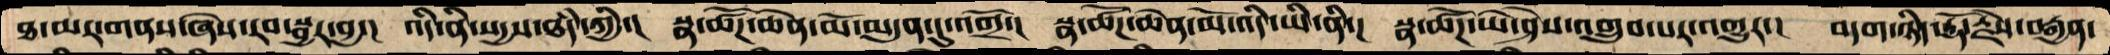ཐ་མར་གནས་ཞེས་རབ་སྦྱར་བྱ་།  འདི་ནི་སདྱས་ཐཾད་ཀྱི་།  སྣ་ཚོཌ་ཆེན་མོ་མདུན་དུ་འགྲོ་།  སྣ་ཚོཌ་ཆེན་མོ་འདི་ཡི་ནི་།  སྣ་ཚོཌ་ཡེ་ཤེས་འགྲུབ་པར་འགྱུར་།  བདག་ཉིད་རྡོ་རྗེས་བརྒྱན་
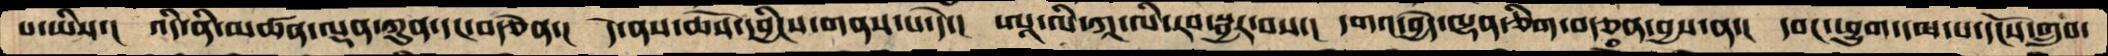པ་ཡིས་།   འདི་ནི་མཚན་ལྡན་ཀུན་དང་བརྩེན་།  དེ་ནས་ཆོས་དབྱིངས་གནས་པ་དེ་།   ཨཱ་ལི་ཀཱ་ལི་རབ་སྦྱར་བས་།  དགའ་བྱེད་ལྷན་ཅིག་བརྩན་བྱས་ན་།  དབང་ཕྱུག་དམ་པ་དངོས་གྲུབ་
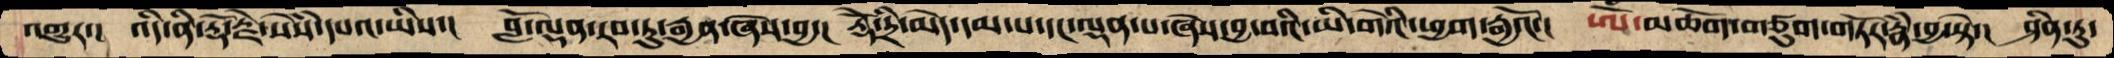འགྱུར་།  འདི་ནི་རྡོ་རྗེ་སེཾས་དཔའ་ཡིས་།   བློ་ལྡན་རབ་ཏུ་རྒྱན་ཞེས་བྱ་།  རྡོེ་དྲི་མེད་དམ་པ་དང་ལྡན་པ་ཞེས་བྱ་བའི་ཡི་གེའི་ཕྱག་རྒྱའོ་།  ཨོཾ་མཆོག་གཙུག་གཏོར་རྣཾ་བྱ་སྟེ་།  ཤིན་ཏུ་
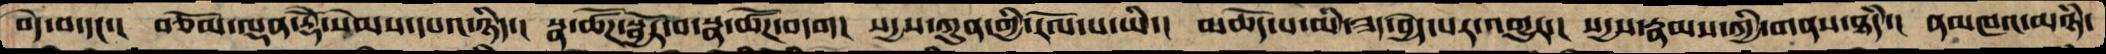བདེ་བ་དང་།  བཅོམ་ལྡན་རྡོེ་སེམས་དཔའ་ཉིད་།  སྣ་ཚོཌ་སྦྱོར་བ་སྣ་ཚོཌ་བདག།  སདྱས་ཀུན་གྱི་རོལ་པ་ཡི་།  མཆོད་པ་མི་ཟད་བྱེད་པར་འགྱུར་།  སདྱས་རྣམས་ཀྱི་གནས་ཐཾད་།  ནམཁའ་མཉཾ་
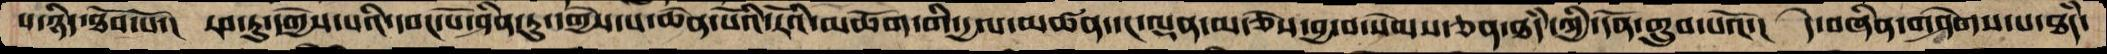པ་ཉིད་ཐོབ་པོ་།  རབ་ཏུ་དགྱེས་པའི་དབང་པོ་ཤིན་ཏུ་དགྱེས་པ་ཆེན་པོའི་རོའི་མཆོག་གི་དྱལ་མཚན་དང་ལྡན་མ་ཅེས་བྱ་བ་སེམས་ཅན་ཐཾད་ཀྱི་དོན་གྲུབ་པའོ་།  དེ་བཞིན་གཤེགས་པ་ཐཾད་
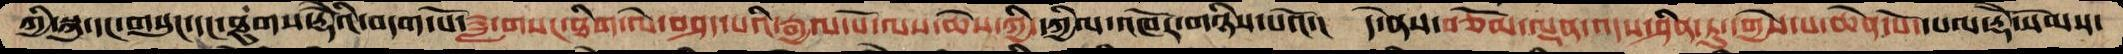ཀྱི་སྐུ་དང་གསུང་དང་ཐུགས་རྡོེའི་བདག་པོ་ཟླ་གསང་ཐིག་ལེ་བཤད་པའི་རྒྱལ་པོ་ལས་ཆེས་ཀྱི་དཀྱིལ་འཁོར་གཉིས་པའོ་།  དེ་ནས་བཅོམ་ལྡན་འདས་ཤིན་ཏུ་དགྱེས་པ་ཆེན་པོ་དཔལ་རྡོེ་སེམས་
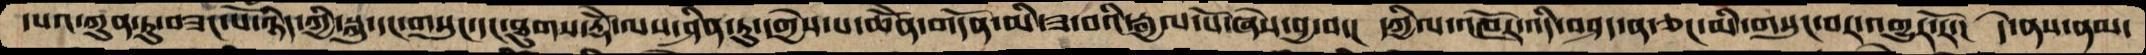དཔའ་ཀུན་ཏུ་བཟང་པོ་ཉིད་ཀྱི་སྐུ་དང་གསུང་དང་ཐུགས་རྡོེ་ལས་ཤིན་ཏུ་དགྱེས་པ་ཆོེན་གདོན་མི་ཟ་བའི་རྒྱལ་པོ་ཞེས་བྱ་བ་།  དཀྱིལ་འཁོར་འདི་བཤད་ན་ཅང་མི་གསུང་བར་འགྱུར་རོ་།  དེ་ནས་ནམ་
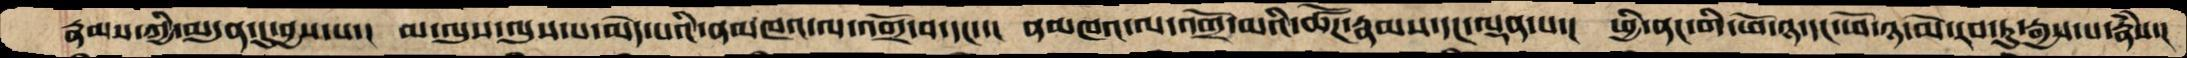རྣམས་ཀྱི་མདུན་དུ་བྱས་པ་།  མ་ལུས་ལུས་པ་མེད་པའི་ནམཁའ་ལ་འགྲོ་བ་དང་་།  ནམཁའ་ལ་འགྲོ་མའི་ཚོཌ་རྣམས་དང་ལྡན་པ་།  ཕྱི་ནང་གི་ཕོ་ཉ་དང་ཕོ་ཉ་མོ་རབ་ཏུ་རྒྱས་པ་རྣཾས་།
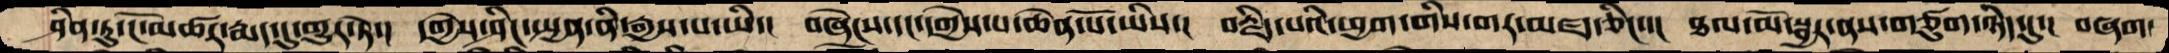ཤིན་ཏུ་ངོ་མཚར་རྨད་དུ་གྱུར་ཏེ་།  དགྱེས་ཤིང་སྤྱན་ནི་རྒྱས་པ་ཡི་།  བཞེངས་དང་དགྱེས་པ་ཆེན་པོ་ཡིས་།  བརྗིད་པའི་ཕྱག་གིས་གར་མཛད་ཅིང་་།  ཐལ་མོ་སྦྱར་ནས་གཙུག་ཉིད་དུ་།  བཞག་
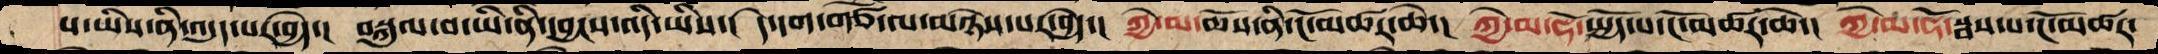པ་ཡིས་ནི་འདུད་པར་བྱེད་།  བསྐུལ་བ་ཡི་ནི་དབྱངས་འདི་ཡིས་།  དེ་དག་གཙོ་ལ་མཉེས་པར་བྱེད་།  ཀྱེ་མ་ཆོས་ནི་ངོ་མཚར་ཆེ་།  ཀྱེ་མ་ཧོ་སྤྱོད་པ་ངོ་མཚར་ཆེ་།  ཀྱེ་མ་ཧོ་སྦས་པ་ངོ་མཚར་
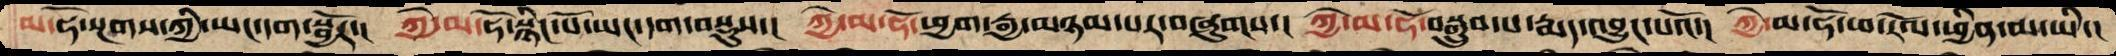མ་ཧོ་སྔགས་ཀྱི་ཡང་དག་སྦྱོར་།  ཀྱེ་མ་ཧོ་སྙིང་པོ་ཡང་དག་བསྡུས་།  ཀྱེ་མ་ཧོ་ཕྱག་རྒྱ་མཉམ་པར་བཞུགས་།  ཀྱེ་མ་ཧོ་བསྒྲུབ་པ་རྨད་འབྱུང་པའོ་།  ཀྱེ་མ་ཧོ་ཕ་རོལ་ཕྱིན་མ་ཡི་།
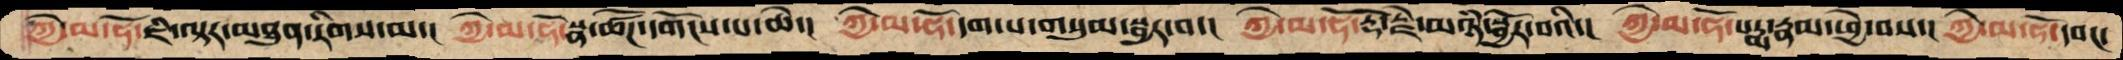ཀྱེ་མ་ཧོ་ཇི་ལྟར་མཐུན་རིགས་མ་།  ཀྱེ་མ་ཧོ་སྣ་ཚོཌ་དགོངས་པ་ཆེ་།  ཀྱེ་མ་ཧོ་དག་པ་གསུམ་སྦྱར་བ་།  ཀྱེ་མ་ཧོ་རྡོ་རྗེ་མཉཾ་སྦྱོར་བའི་།  ཀྱེ་མ་ཧོ་པདྨ་རྣམ་ཕྱེ་བས་།  ཀྱེ་མ་ཧོ་དབང་
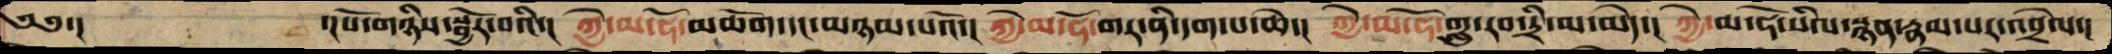༄༅་།        ་།པོ་གཉིས་སྦྱོར་བའི་།  ཀྱེ་མ་ཧོ་མཆོག་དང་མཉམ་པའོ་།  ཀྱེ་མ་ཧོ་གར་ནི་དག་པ་ཆེ་།  ཀྱེ་མ་ཧོ་གླུ་རབ་དྲི་མ་མེད་།  ཀྱེ་མ་ཧོ་སིལ་སྙན་རྣམ་པར་འབྲེལ་།
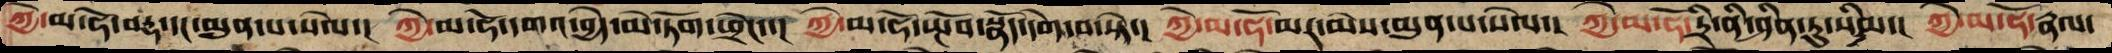ཀྱེ་མ་ཧོ་བརྡ་དང་མུན་པ་སེལ་། ཀྱེ་མ་ཧོ་དགའ་བྱེད་མེ་ཏོག་ཕྲེང་་། ཀྱེ་མ་ཧོ་སྤོབ་སྣོད་དགེ་བ་སྟེ་། ཀྱེ་མ་ཧོ་མར་མེས་མུན་པ་སེལ་། ཀྱེ་མ་ཧོ་དྲི་ནི་ཤིན་ཏུ་སིམ་། ཀྱེ་མ་ཧོ་རྣལ་
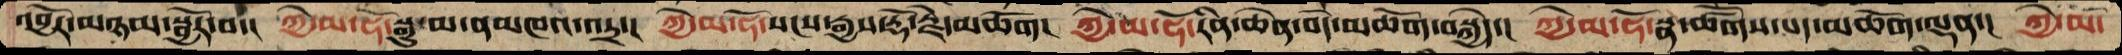འབྱོར་མཉམ་སྦྱོར་བ་། ཀྱེ་མ་ཧོ་སྒྱུ་མ་ནམཁའ་འདྲ་། ཀྱེ་མ་ཧོ་སངས་རྒྱས་རྡོ་རྗེ་མཆོག། ཀྱེ་མ་ཧོ་རིན་ཆེན་བདེ་མཆོག་བསྐྱེད་། ཀྱེ་མ་ཧོ་སྣ་ཚོགས་པད་མཆོག་ལྡན་། ཀྱེ་མ་
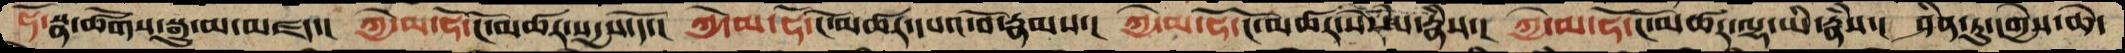ཧོ་སྣ་ཚོགས་སྒྱུ་མ་མཛད་། ཀྱེ་མ་ཧོ་ངོ་མཚར་སདྱས་དོ་། ཀྱེ་མ་ཧོ་ངེ་མཚར་དཔའ་བོ་རྣམས་། ཀྱེ་མ་ཧོ་ངོ་མཚར་སེསཾཔ་རྣཾས་། ཀྱེ་མ་ཧོ་ངོ་མཚར་ལྷ་ཡི་རྣཾས་།  ཤིན་ཏུ་དགྱེས་ཆེ་
